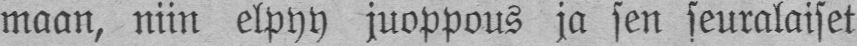maan, niin elpyy juoppous ja sen seuralaiset
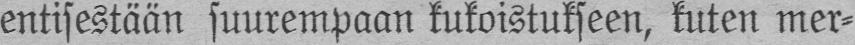entisestään suurempaan kukoistukseen, kuten mer-
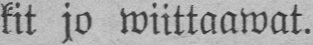kit jo wiittaawat.
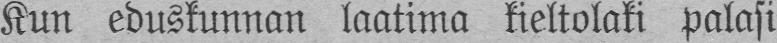Kun eduskunnan laatima kieltolaki palasi
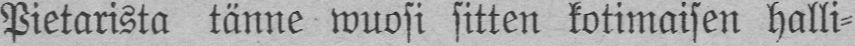Pietarista tänne wuosi sitten kotimaisen halli-
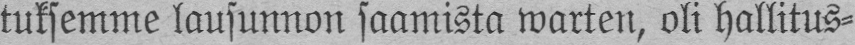tuksemme lausunnon saamista warten, oli hallitus-
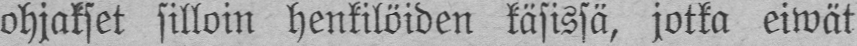ohjakset silloin henkilöiden käsissä, jotka eiwät
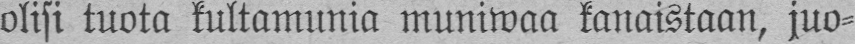olisi tuota kultamunia muniwaa kanaistaan, juo-
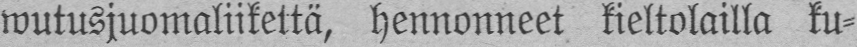wutusjuomaliikettä, hennonneet kieltolailla ku-
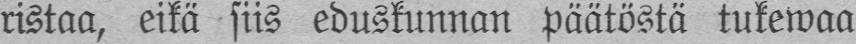ristaa, eikä siis eduskunnan päätöstä tukewaa
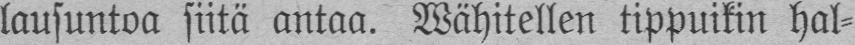lausuntoa siitä antaa. Wähitellen tippuikin hal-
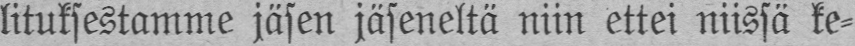lituksestamme jäsen jäseneltä niin ettei niissä ke-
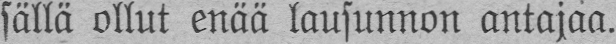sällä ollut enää lausunnon antajaa.
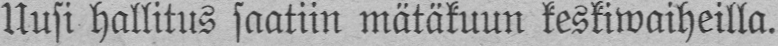Uusi hallitus saatiin mätäkuun keskiwaiheilla.
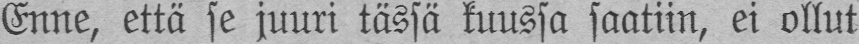Enne, että se juuri tässä kuussa saatiin, ei ollut
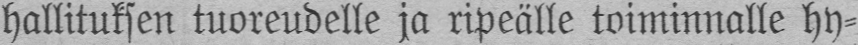hallituksen tuoreudelle ja ripeälle toiminnalle hy-
